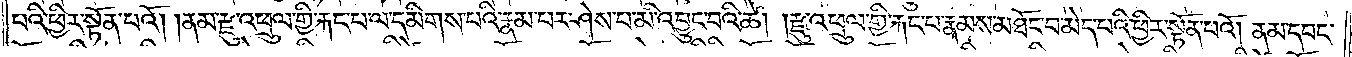པའི་ཕྱིར་སྟོན་པའོ། །ནམ་རྫུ་འཕྲུལ་གྱི་རྐང་པ་ལ་དམིགས་པའི་རྣམ་པར་ཤེས་པ་མི་འབྱུང་བའི་ཚེ། རྫུ་འཕྲུལ་གྱི་རྐང་པ་རྣམས་མཐོང་བ་མེད་པའི་ཕྱིར་སྟོན་པའོ། །ནམ་དབང་
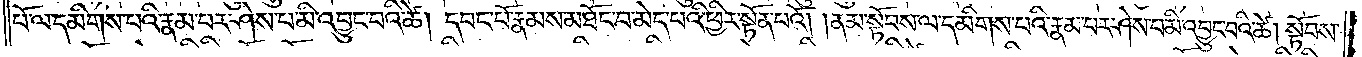པོ་ལ་དམིགས་པའི་རྣམ་པར་ཤེས་པ་མི་འབྱུང་བའི་ཚེ། དབང་པོ་རྣམས་མཐོང་བ་མེད་པའི་ཕྱིར་སྟོན་པའོ། །ནམ་སྟོབས་ལ་དམིགས་པའི་རྣམ་པར་ཤེས་པ་མི་འབྱུང་བའི་ཚེ། སྟོབས་
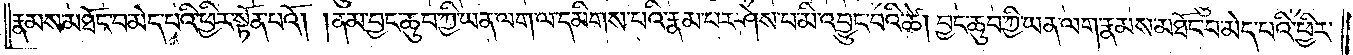རྣམས་མཐོང་བ་མེད་པའི་ཕྱིར་སྟོན་པའོ། །ནམ་བྱང་ཆུབ་ཀྱི་ཡན་ལག་ལ་དམིགས་པའི་རྣམ་པར་ཤེས་པ་མི་འབྱུང་བའི་ཚེ། བྱང་ཆུབ་ཀྱི་ཡན་ལག་རྣམས་མཐོང་བ་མེད་པའི་ཕྱིར་
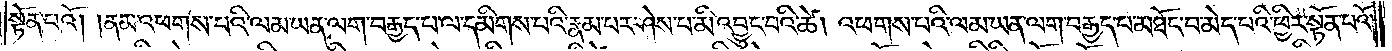སྟོན་པའོ། །ནམ་འཕགས་པའི་ལམ་ཡན་ལག་བརྒྱད་པ་ལ་དམིགས་པའི་རྣམ་པར་ཤེས་པ་མི་འབྱུང་བའི་ཚེ། འཕགས་པའི་ལམ་ཡན་ལག་བརྒྱད་པ་མཐོང་བ་མེད་པའི་ཕྱིར་སྟོན་པའོ། །
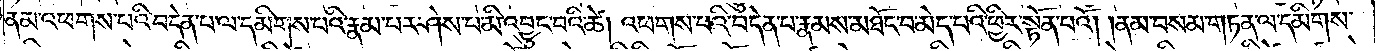ནམ་འཕགས་པའི་བདེན་པ་ལ་དམིགས་པའི་རྣམ་པར་ཤེས་པ་མི་འབྱུང་བའི་ཚེ། འཕགས་པའི་བདེན་པ་རྣམས་མཐོང་བ་མེད་པའི་ཕྱིར་སྟོན་པའོ། །ནམ་བསམ་གཏན་ལ་དམིགས་
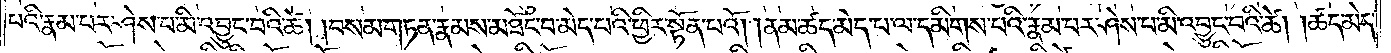པའི་རྣམ་པར་ཤེས་པ་མི་འབྱུང་བའི་ཚེ། བསམ་གཏན་རྣམས་མཐོང་བ་མེད་པའི་ཕྱིར་སྟོན་པའོ། །ནམ་ཚད་མེད་པ་ལ་དམིགས་པའི་རྣམ་པར་ཤེས་པ་མི་འབྱུང་བའི་ཚེ། ཚད་མེད་
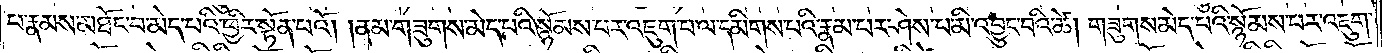པ་རྣམས་མཐོང་བ་མེད་པའི་ཕྱིར་སྟོན་པའོ། །ནམ་གཟུགས་མེད་པའི་སྙོམས་པར་འཇུག་པ་ལ་དམིགས་པའི་རྣམ་པར་ཤེས་པ་མི་འབྱུང་བའི་ཚེ། གཟུགས་མེད་པའི་སྙོམས་པར་འཇུག་
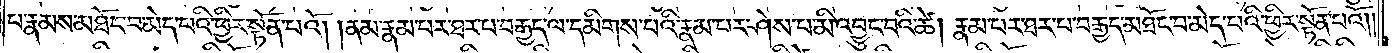པ་རྣམས་མཐོང་བ་མེད་པའི་ཕྱིར་སྟོན་པའོ། །ནམ་རྣམ་པར་ཐར་པ་བརྒྱད་ལ་དམིགས་པའི་རྣམ་པར་ཤེས་པ་མི་འབྱུང་བའི་ཚེ། རྣམ་པར་ཐར་པ་བརྒྱད་མཐོང་བ་མེད་པའི་ཕྱིར་སྟོན་པའོ། །
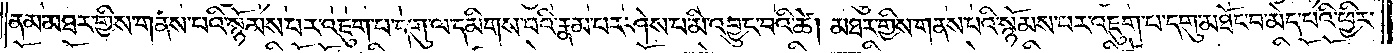ནམ་མཐར་གྱིས་གནས་པའི་སྙོམས་པར་འཇུག་པ་དགུ་ལ་དམིགས་པའི་རྣམ་པར་ཤེས་པ་མི་འབྱུང་བའི་ཚེ། མཐར་གྱིས་གནས་པའི་སྙོམས་པར་འཇུག་པ་དགུ་མཐོང་བ་མེད་པའི་ཕྱིར་
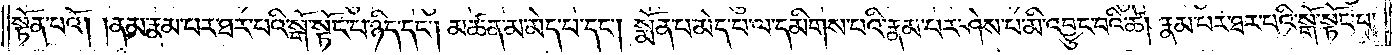སྟོན་པའོ། །ནམ་རྣམ་པར་ཐར་པའི་སྒོ་སྟོང་པ་ཉིད་དང༌། མཚན་མ་མེད་པ་དང༌། སྨོན་པ་མེད་པ་ལ་དམིགས་པའི་རྣམ་པར་ཤེས་པ་མི་འབྱུང་བའི་ཚེ། རྣམ་པར་ཐར་པའི་སྒོ་སྟོང་པ་
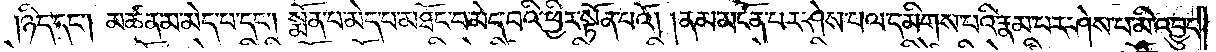ཉིད་དང༌། མཚན་མ་མེད་པ་དང༌། སྨོན་པ་མེད་པ་མཐོང་བ་མེད་པའི་ཕྱིར་སྟོན་པའོ། །ནམ་མངོན་པར་ཤེས་པ་ལ་དམིགས་པའི་རྣམ་པར་ཤེས་པ་མི་འབྱུང་
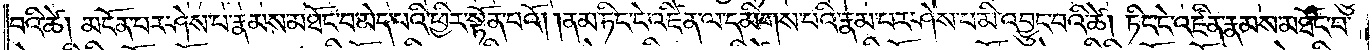བའི་ཚེ། མངོན་པར་ཤེས་པ་རྣམས་མཐོང་བ་མེད་པའི་ཕྱིར་སྟོན་པའོ། །ནམ་ཏིང་ངེ་འཛིན་ལ་དམིགས་པའི་རྣམ་པར་ཤེས་པ་མི་འབྱུང་བའི་ཚེ། ཏིང་ངེ་འཛིན་རྣམས་མཐོང་བ་
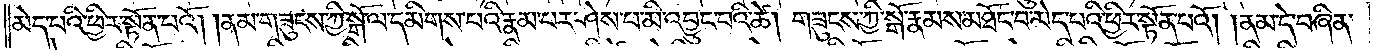མེད་པའི་ཕྱིར་སྟོན་པའོ། །ནམ་གཟུངས་ཀྱི་སྒོ་ལ་དམིགས་པའི་རྣམ་པར་ཤེས་པ་མི་འབྱུང་བའི་ཚེ། གཟུངས་ཀྱི་སྒོ་རྣམས་མཐོང་བ་མེད་པའི་ཕྱིར་སྟོན་པའོ། །ནམ་དེ་བཞིན་
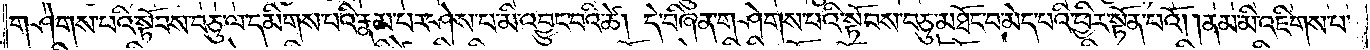གཤེགས་པའི་སྟོབས་བཅུ་ལ་དམིགས་པའི་རྣམ་པར་ཤེས་པ་མི་འབྱུང་བའི་ཚེ། དེ་བཞིན་གཤེགས་པའི་སྟོབས་བཅུ་མཐོང་བ་མེད་པའི་ཕྱིར་སྟོན་པའོ། །ནམ་མི་འཇིགས་པ་
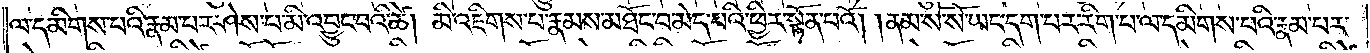ལ་དམིགས་པའི་རྣམ་པར་ཤེས་པ་མི་འབྱུང་བའི་ཚེ། མི་འཇིགས་པ་རྣམས་མཐོང་བ་མེད་པའི་ཕྱིར་སྟོན་པའོ། །ནམ་སོ་སོ་ཡང་དག་པར་རིག་པ་ལ་དམིགས་པའི་རྣམ་པར་
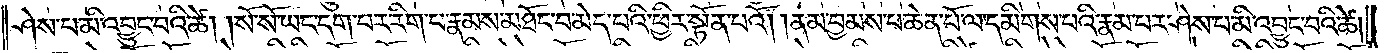ཤེས་པ་མི་འབྱུང་བའི་ཚེ། སོ་སོ་ཡང་དག་པར་རིག་པ་རྣམས་མཐོང་བ་མེད་པའི་ཕྱིར་སྟོན་པའོ། །ནམ་བྱམས་པ་ཆེན་པོ་ལ་དམིགས་པའི་རྣམ་པར་ཤེས་པ་མི་འབྱུང་བའི་ཚེ།
